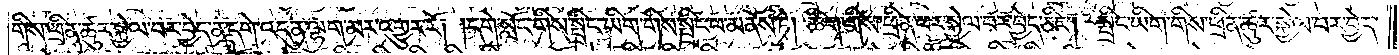གིས་ཕྲིན་ཚུར་སྐྱེལ་བར་བྱེད་ན་དགེ་འདུན་ལྷག་མར་འགྱུར་རོ། །དགེ་སློང་གིས་སྤྲིང་ཡིག་གིས་སྤྲིང་པ་མནོས་ཏེ། ཚིག་གིས་ཕྲིན་ཕར་སྐྱེལ་བར་བྱེད་ཅིང༌། སྤྲིང་ཡིག་གིས་ཕྲིན་ཚུར་སྐྱེལ་བར་བྱེད་
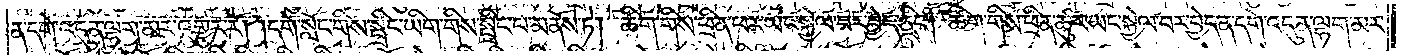ན་དགེ་འདུན་ལྷག་མར་འགྱུར་རོ། །དགེ་སློང་གིས་སྤྲིང་ཡིག་གིས་སྤྲིང་པ་མནོས་ཏེ། ཚིག་གིས་ཕྲིན་ཕར་ཡང་སྐྱེལ་བར་བྱེད་ཅིང༌། ཚིག་གིས་ཕྲིན་ཚུར་ཡང་སྐྱེལ་བར་བྱེད་ན་དགེ་འདུན་ལྷག་མར་
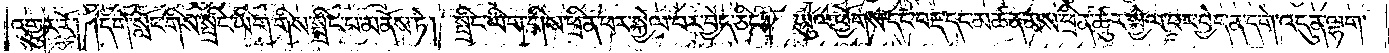འགྱུར་རོ། །དགེ་སློང་གིས་སྤྲིང་ཡིག་གིས་སྤྲིང་པ་མནོས་ཏེ། སྤྲིང་ཡིག་གིས་ཕྲིན་ཕར་སྐྱེལ་བར་བྱེད་ཅིང༌། ཡུལ་ཕྱོགས་དང་བརྡ་དང་མཚན་མས་ཕྲིན་ཚུར་སྐྱེལ་བར་བྱེད་ན་དགེ་འདུན་ལྷག་
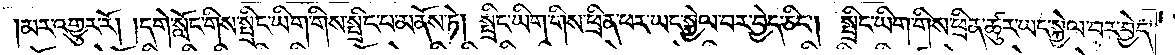།མར་འགྱུར་རོ། །དགེ་སློང་གིས་སྤྲིང་ཡིག་གིས་སྤྲིང་པ་མནོས་ཏེ། སྤྲིང་ཡིག་གིས་ཕྲིན་ཕར་ཡང་སྐྱེལ་བར་བྱེད་ཅིང༌། སྤྲིང་ཡིག་གིས་ཕྲིན་ཚུར་ཡང་སྐྱེལ་བར་བྱེད་
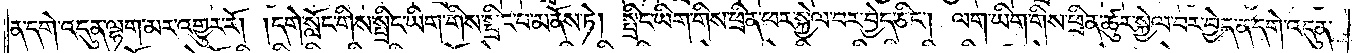ན་དགེ་འདུན་ལྷག་མར་འགྱུར་རོ། །དགེ་སློང་གིས་སྤྲིང་ཡིག་གིས་སྤྲིང་པ་མནོས་ཏེ། སྤྲིང་ཡིག་གིས་ཕྲིན་ཕར་སྐྱེལ་བར་བྱེད་ཅིང༌། ལག་ཡིག་གིས་ཕྲིན་ཚུར་སྐྱེལ་བར་བྱེད་ན་དགེ་འདུན་
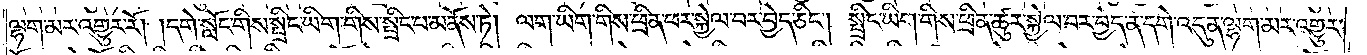ལྷག་མར་འགྱུར་རོ། །དགེ་སློང་གིས་སྤྲིང་ཡིག་གིས་སྤྲིང་པ་མནོས་ཏེ། ལག་ཡིག་གིས་ཕྲིན་ཕར་སྐྱེལ་བར་བྱེད་ཅིང༌། སྤྲིང་ཡིག་གིས་ཕྲིན་ཚུར་སྐྱེལ་བར་བྱེད་ན་དགེ་འདུན་ལྷག་མར་འགྱུར་
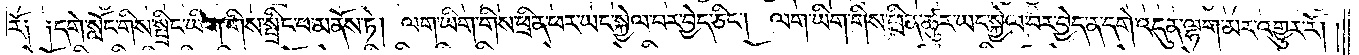རོ༑ ༑དགེ་སློང་གིས་སྤྲིང་ཡིག་གིས་སྤྲིང་པ་མནོས་ཏེ། ལག་ཡིག་གིས་ཕྲིན་ཕར་ཡང་སྐྱེལ་བར་བྱེད་ཅིང༌། ལག་ཡིག་གིས་ཕྲིན་ཚུར་ཡང་སྐྱེལ་བར་བྱེད་ན་དགེ་འདུན་ལྷག་མར་འགྱུར་རོ། །
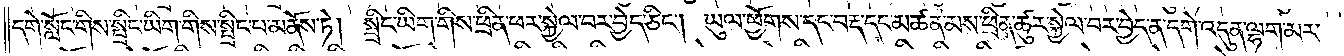དགེ་སློང་གིས་སྤྲིང་ཡིག་གིས་སྤྲིང་པ་མནོས་ཏེ། སྤྲིང་ཡིག་གིས་ཕྲིན་ཕར་སྐྱེལ་བར་བྱེད་ཅིང༌། ཡུལ་ཕྱོགས་དང་བརྡ་དང་མཚན་མས་ཕྲིན་ཚུར་སྐྱེལ་བར་བྱེད་ན་དགེ་འདུན་ལྷག་མར་
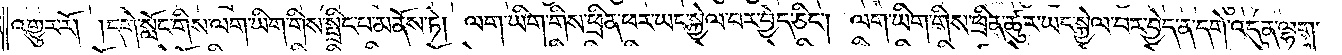འགྱུར་རོ། །དགེ་སློང་གིས་ལག་ཡིག་གིས་སྤྲིང་པ་མནོས་ཏེ། ལག་ཡིག་གིས་ཕྲིན་ཕར་ཡང་སྐྱེལ་བར་བྱེད་ཅིང༌། ལག་ཡིག་གིས་ཕྲིན་ཚུར་ཡང་སྐྱེལ་བར་བྱེད་ན་དགེ་འདུན་ལྷག་
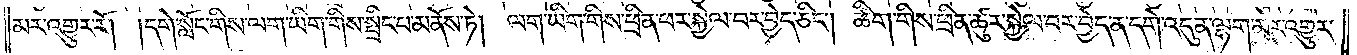མར་འགྱུར་རོ། །དགེ་སློང་གིས་ལག་ཡིག་གིས་སྤྲིང་པ་མནོས་ཏེ། ལག་ཡིག་གིས་ཕྲིན་ཕར་སྐྱེལ་བར་བྱེད་ཅིང༌། ཚིག་གིས་ཕྲིན་ཚུར་སྐྱེལ་བར་བྱེད་ན་དགེ་འདུན་ལྷག་མར་འགྱུར་
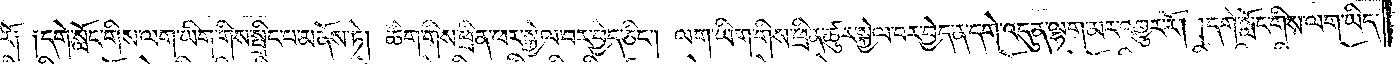རོ༑ ༑དགེ་སློང་གིས་ལག་ཡིག་གིས་སྤྲིང་པ་མནོས་ཏེ། ཚིག་གིས་ཕྲིན་ཕར་སྐྱེལ་བར་བྱེད་ཅིང༌། ལག་ཡིག་གིས་ཕྲིན་ཚུར་སྐྱེལ་བར་བྱེད་ན་དགེ་འདུན་ལྷག་མར་འགྱུར་རོ། །དགེ་སློང་གིས་ལག་ཡིད་
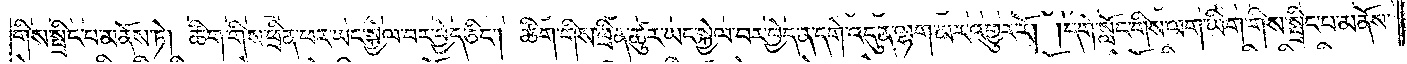གིས་སྤྲིང་པ་མནོས་ཏེ། ཚིག་གིས་ཕྲིན་ཕར་ཡང་སྐྱེལ་བར་བྱེད་ཅིང༌། ཚིག་གིས་ཕྲིན་ཚུར་ཡང་སྐྱེལ་བར་བྱེད་ན་དགེ་འདུན་ལྷག་མར་འགྱུར་རོ། །དགེ་སློང་གིས་ལག་ཡིག་གིས་སྤྲིང་པ་མནོས་
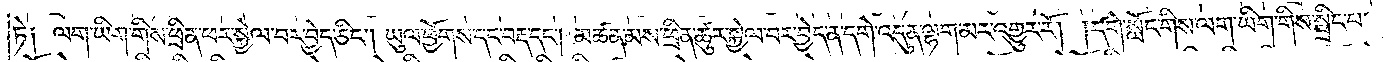ཏེ༑ ལག་ཡིག་གིས་ཕྲིན་ཕར་སྐྱེལ་བར་བྱེད་ཅིང༌། ཡུལ་ཕྱོགས་དང་བརྡ་དང༌། མཚན་མས་ཕྲིན་ཚུར་སྐྱེལ་བར་བྱེད་ན་དགེ་འདུན་ལྷག་མར་འགྱུར་རོ། །དགེ་སློང་གིས་ལག་ཡིག་གིས་སྤྲིང་པ་
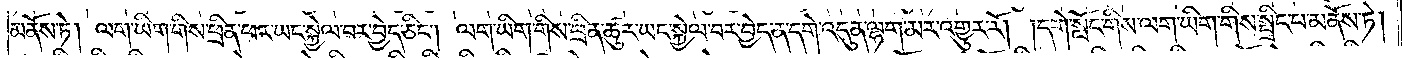མནོས་ཏེ། ལག་ཡིག་གིས་ཕྲིན་ཕར་ཡང་སྐྱེལ་བར་བྱེད་ཅིང༌། ལག་ཡིག་གིས་ཕྲིན་ཚུར་ཡང་སྐྱེལ་བར་བྱེད་ན་དགེ་འདུན་ལྷག་མར་འགྱུར་རོ། །དགེ་སློང་གིས་ལག་ཡིག་གིས་སྤྲིང་པ་མནོས་ཏེ།
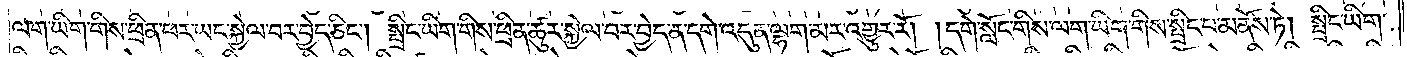ལག་ཡིག་གིས་ཕྲིན་ཕར་ཡང་སྐྱེལ་བར་བྱེད་ཅིང༌། སྤྲིང་ཡིག་གིས་ཕྲིན་ཚུར་སྐྱེལ་བར་བྱེད་ན་དགེ་འདུན་ལྷག་མར་འགྱུར་རོ། །དགེ་སློང་གིས་ལག་ཡིག་གིས་སྤྲིང་པ་མནོས་ཏེ། སྤྲིང་ཡིག་
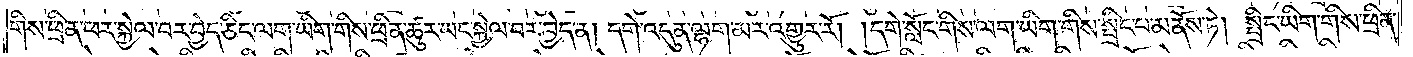གིས་ཕྲིན་ཕར་སྐྱེལ་བར་བྱེད་ཅིང་ལག་ཡིག་གིས་ཕྲིན་ཚུར་ཡང་སྐྱེལ་བར་བྱེད་ན། དགེ་འདུན་ལྷག་མར་འགྱུར་རོ། །དགེ་སློང་གིས་ལག་ཡིག་གིས་སྤྲིང་པ་མནོས་ཏེ། སྤྲིང་ཡིག་གིས་ཕྲིན་
